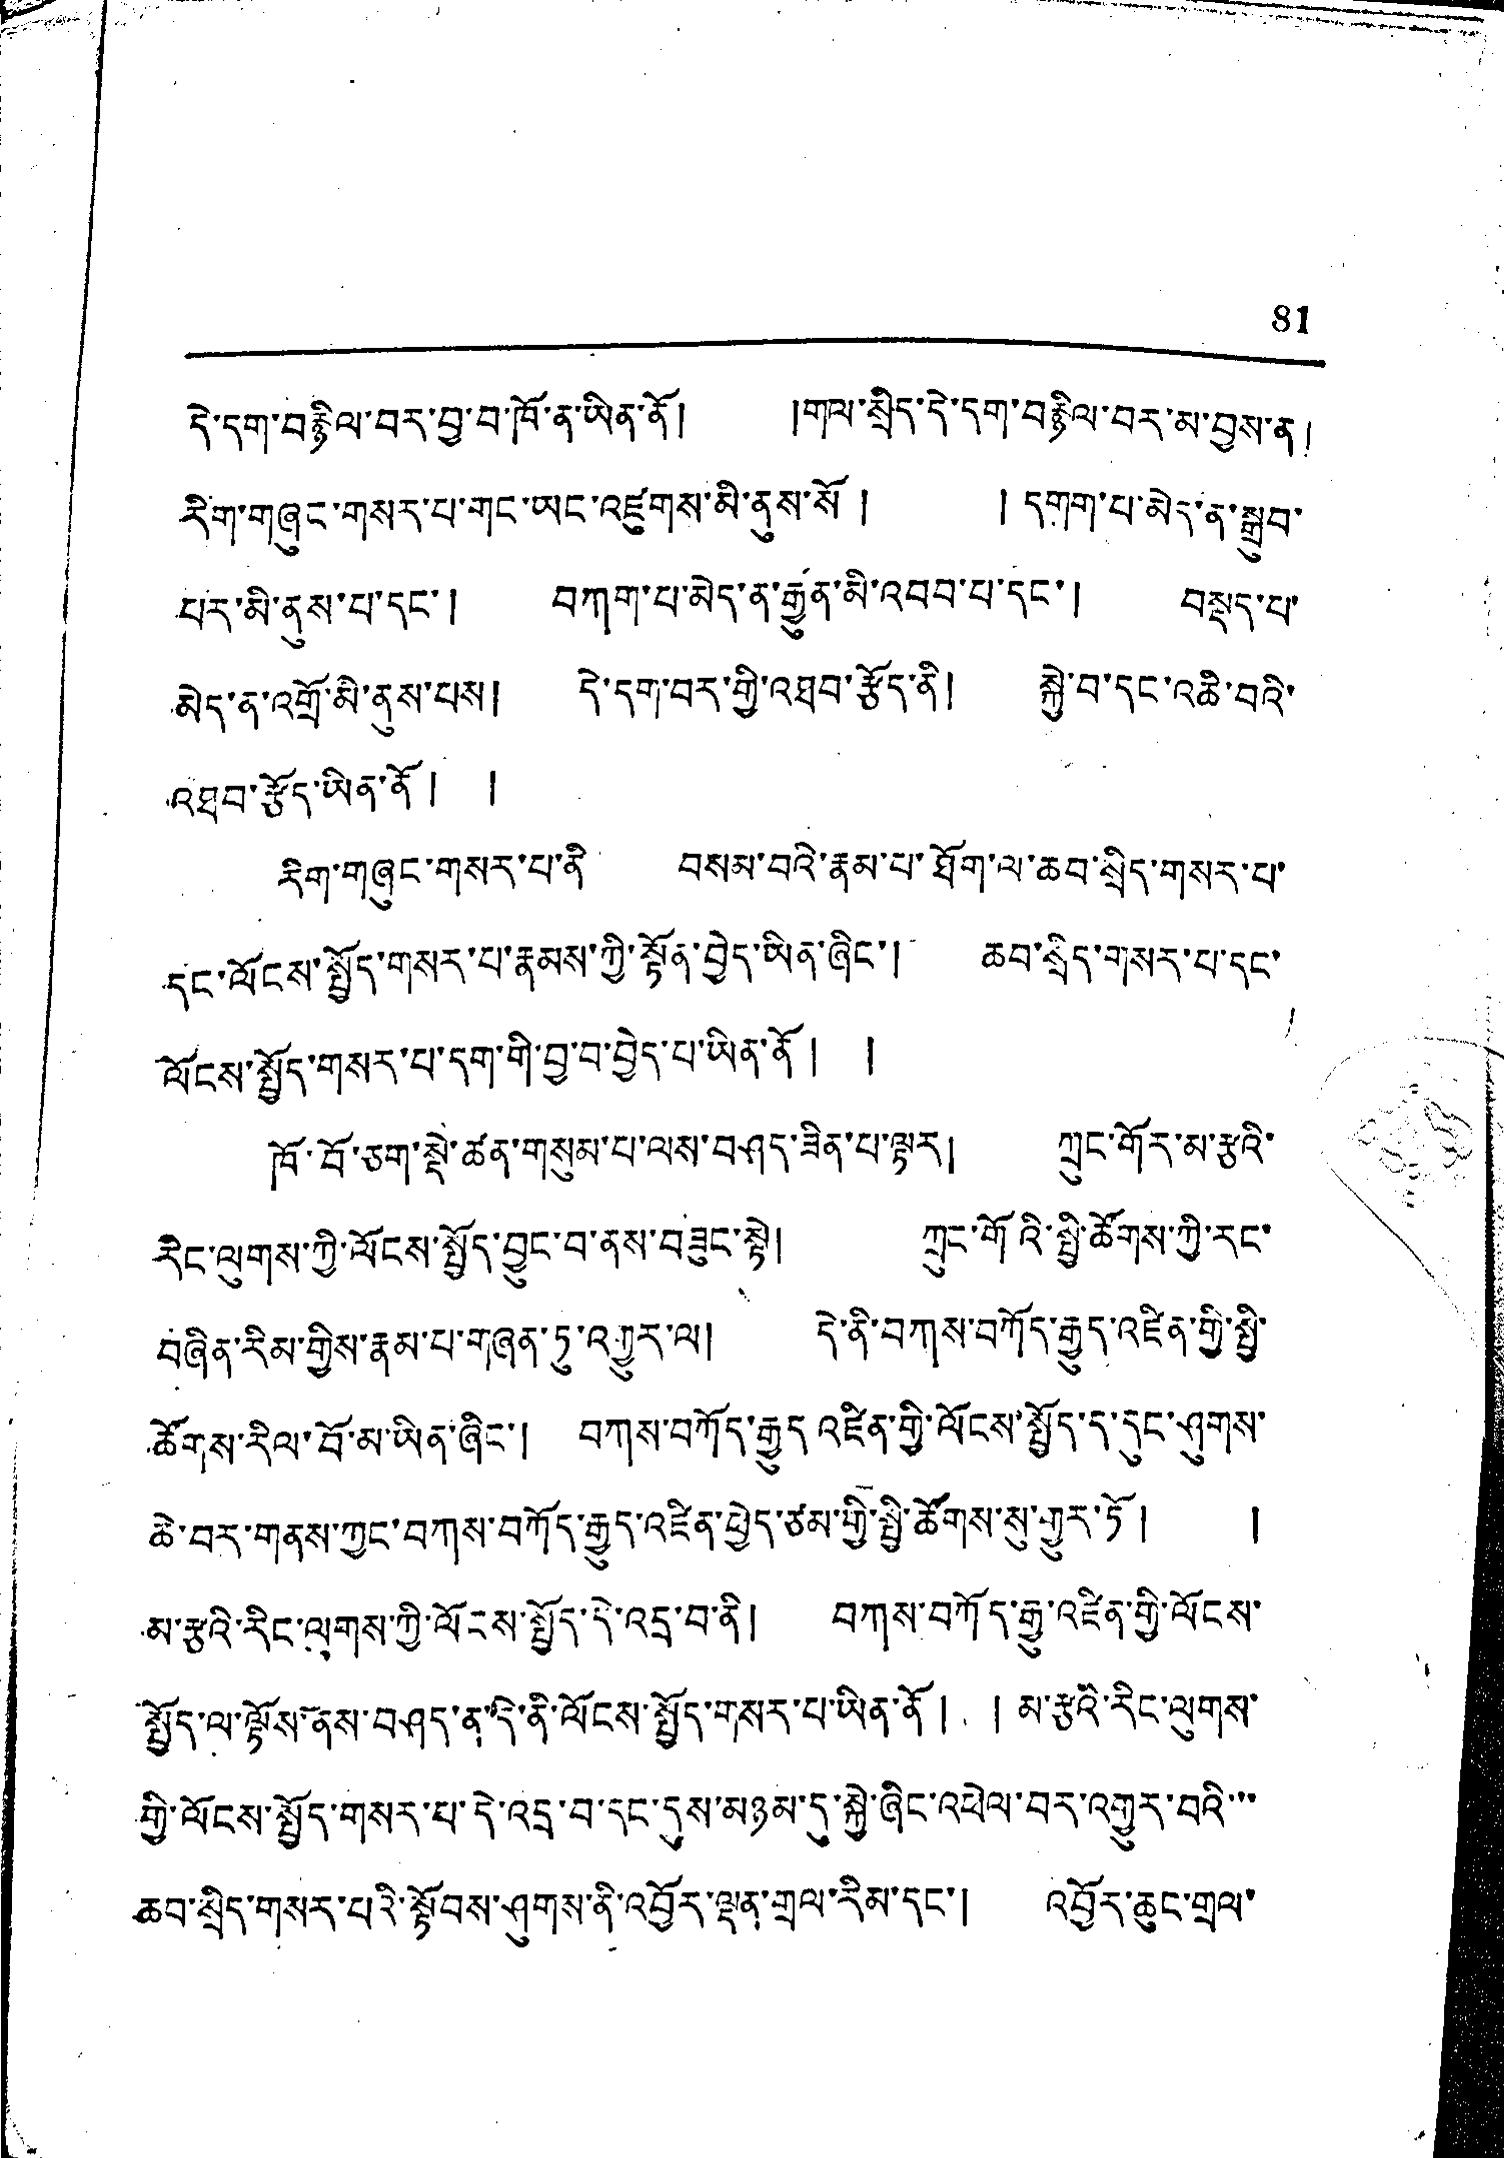81
དེ་དག་བརྙིལ་བར་བྱ་བ་ཁོ་ན་ཡིན་ནོ། །གལ་སྲིད་དེ་དག་བརྙིལ་བར་མ་བྱས་ན།
རིག་གཞུང་གསར་པ་གང་ཡང་འཛུགས་མི་ནུས་སོ ། །དགག་པ་མེད་ན་སྒྲུབ་
པར་མི་ནུས་པ་དང་། བཀག་པ་མེད་ན་རྒྱུན་མི་འབབ་པ་དང་། བསྡད་པ་
མེད་ན་འགྲོ་མི་ནུས་པས། དེ་དག་བར་གྱི་འཐབ་རྩོད་ནི། སྐྱེ་བ་དང་འཆི་བའི་
འཐབ་རྩོད་ཡིན་ནོ ། །
རིག་གཞུང་གསར་པ་ནི བསམ་བའི་རྣམ་པ་ཐོག་ལ་ཆབ་སྲིད་གསར་པ་
དང་ལོངས་སྤྱོད་གསར་པ་རྣམས་ཀྱི་སྟོན་བྱེད་ཡིན་ཞིང་། ཆབ་སྲིད་གསར་པ་དང་།
ལོངས་སྤྱོད་གསར་པ་དག་གི་བྱ་བ་བྱེད་པ་ཡིན་ནོ། །
ཁོ་བོ་ཅག་སྟེ་ཚན་གསུམ་པ་ལས་བཤད་ཟིན་པ་ལྟར། ཀྲུང་གོར་མ་རྩའི་
རིང་ལུགས་ཀྱི་ལོངས་སྤྱོད་བྱུང་བ་ནས་བཟུང་སྟེ། ཀྲུང་གོའི་སྤྱི་ཚོགས་ཀྱི་རང་
བཞིན་རིམ་གྱིས་རྣམ་པ་གཞན་ཏུ་འགྱུར་ལ། དེ་ནི་བཀས་བཀོད་རྒྱུད་འཛིན་གྱི་སྤྱི་
ཚོགས་རིལ་བོ་མ་ཡིན་ཞིང་། བཀས་བཀོད་རྒྱུད འཛིན་གྱི་ལོངས་སྤྱོད་ད་དུང་ཤུགས་
ཆེ་བར་གནས་ཀྱང་བཀས་བཀོད་རྒྱུད་འཛིན་ཕྱེད་ཙམ་གྱི་སྤྱི་ཚོགས་སུ་གྱུར་ཏོ། །
མ་རྩའི་རིང་ལུགས་ཀྱི་ལོངས་སྤྱོད་དེ་འདྲ་བ་ནི། བཀས་བཀོད་རྒྱུ་འཛིན་གྱི་ལོངས་
སྤྱོད་ལ་ལྟོས་ནས་བཤད་ན་དེ་ནི་ལོངས་སྤྱོད་གསར་པ་ཡིན་ནོ ། ། མ་རྩའི་རིང་ལུགས་
གྱི་ལོངས་སྤྱོད་གསར་པ་དེ་འདྲ་བ་དང་དུས་མཉམ་དུ་སྐྱེ་ཞིང་འཕེལ་བར་འགྱུར་བའི་་་
ཆབ་སྲིད་གསར་པའི་སྟོབས་ཤུགས་ནི་འབྱོར་ལྡན་གྲལ་རིམ་དང་། འབྱོར་ཆུང་གྲལ་
